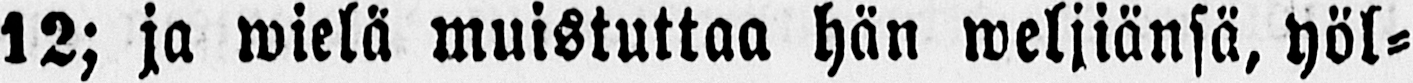12; ja wielä muistuttaa hän weljiänsä, yöl-
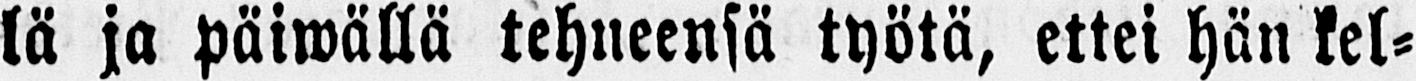lä ja päiwällä tehneensä työtä, ettei hän kel-
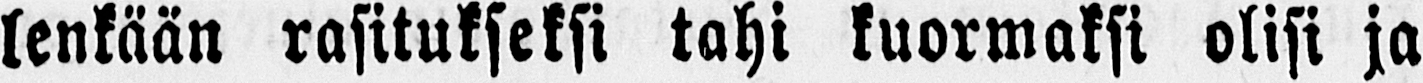lenkään rasitukseksi tahi kuormaksi olisi ja
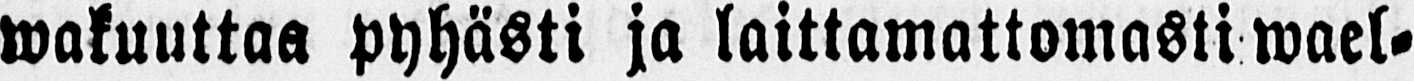wakuuttaa pyhästi ja laittamattomasti wael-
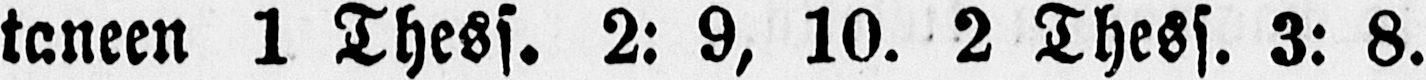taneen 1 Thess. 2: 9, 10. 2 Thess. 3: 8.
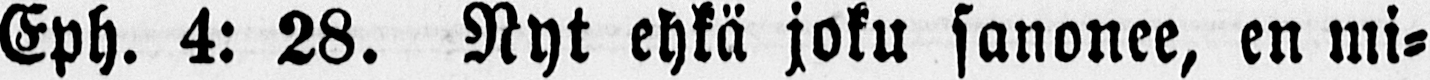Eph. 4: 28. Nyt ehkä joku sanonee, en mi-
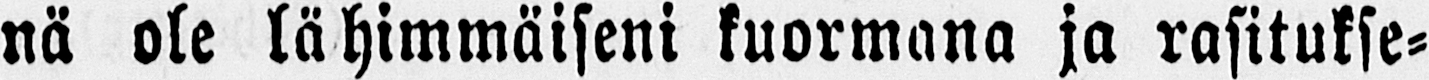nä ole lähimmäiseni kuormana ja rasitukse-
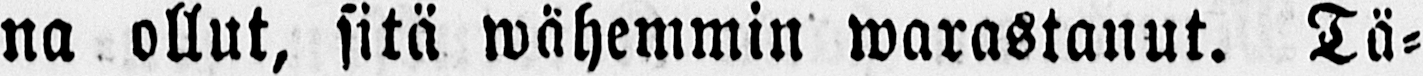na ollut, sitä wähemmin warastanut. Tä-
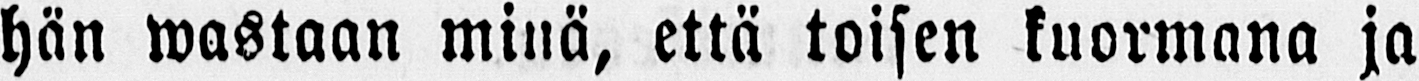hän wastaan minä, että toisen kuormana ja
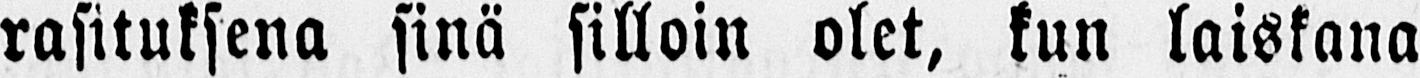rasituksena sinä silloin olet, kun laiskana
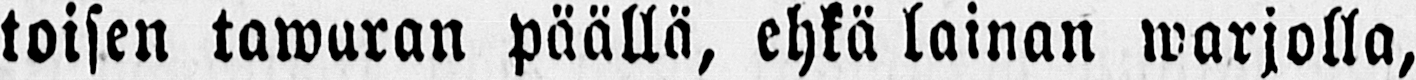toisen tawaran päällä, ehkä lainan warjolla,
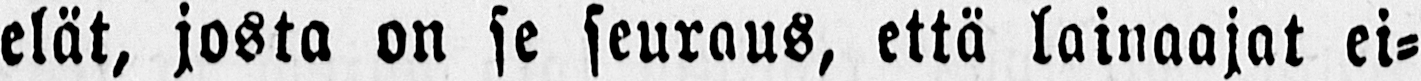elät, josta on se seuraus, että lainaajat ei-
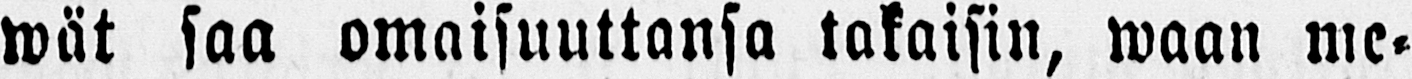wät saa omaisuuttansa takaisin, waan me-
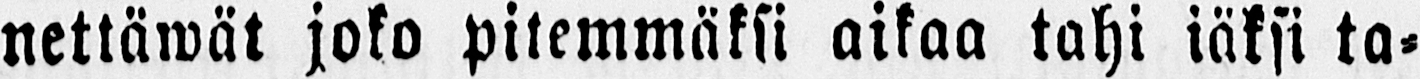nettäwät joko pitemmäksi aikaa tahi iäksi ta-
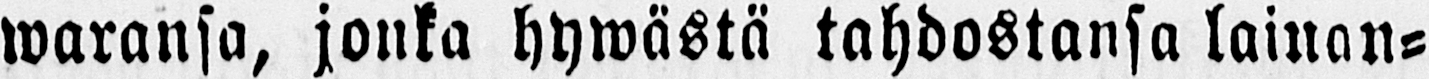waransa, jonka hywästä tahdostansa lainan-
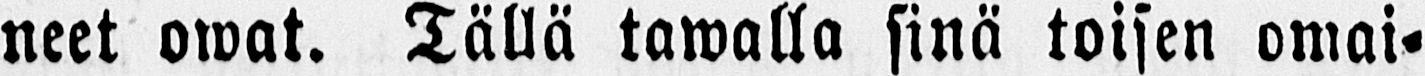neet owat. Tällä tawalla sinä toisen omai-
